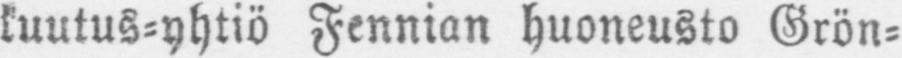kuutus-yhtiö Fennian huoneusto Grön-
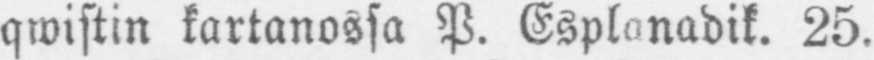qwistin kartanossa P. Esplanadik. 25.
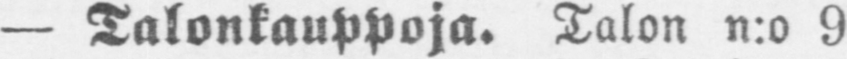— Talonkauppoja. Talon n:o 9
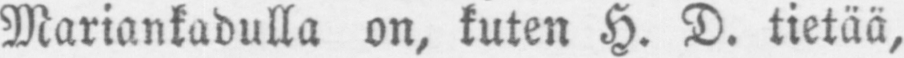Mariankadulla on, kuten H. D. tietää,
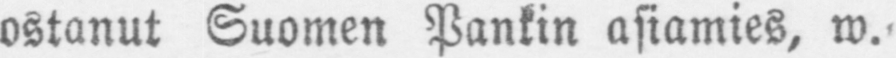ostanut Suomen Pankin asiamies, w.
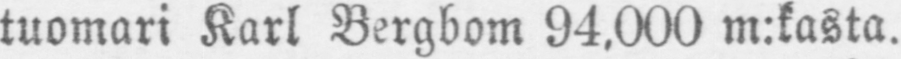tuomari Karl Bergbom 94,000 m:kasta.
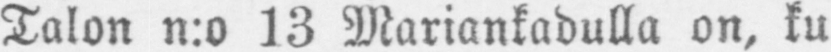Talon n:o 13 Mariankadulla on, ku-
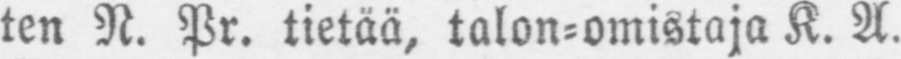ten N. Pr. tietää, talon-omistaja K. A.
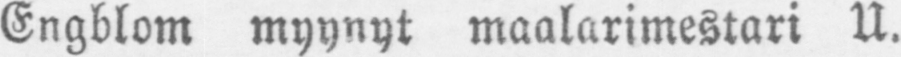Engblom myynyt maalarimestari U.
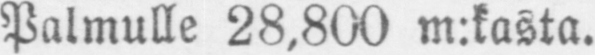Palmulle 28,800 nukasta.
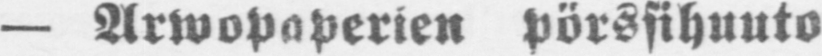— Arwop a perien pörssihuuto
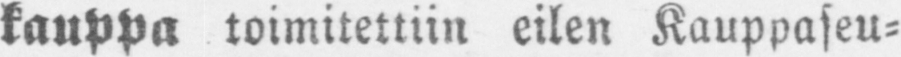kauppa toimitettiin eilen Kauppaseu-
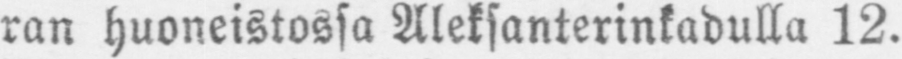ran huoneistossa Aleksanterinkadulla 12.
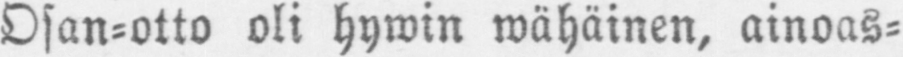Osan-otto oli hywin wähäinen, ainoas-
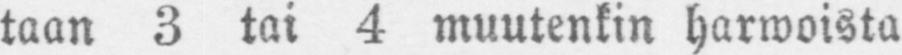taan 3 tai 4 muutenkin Harwoista
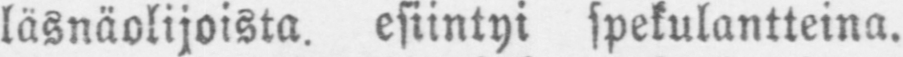läsnäolijoista. esiintyi spekulantteina.
